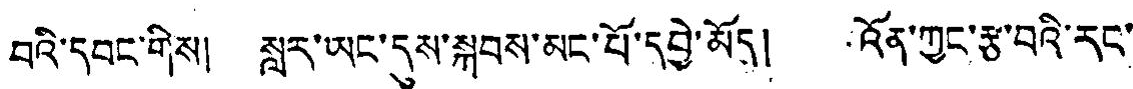བའི་དབང་གིས། སླར་ཡང་དུས་སྐབས་མང་པོ་དབྱེ་མོད། འོན་ཀྱང་རྩ་བའི་རང་
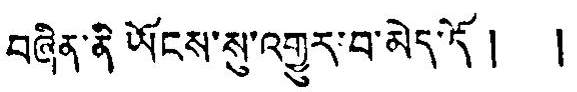བཞིན་ནི་ཡོངས་སུ་འགྱུར་བ་མེད་དོ ། །
